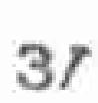31
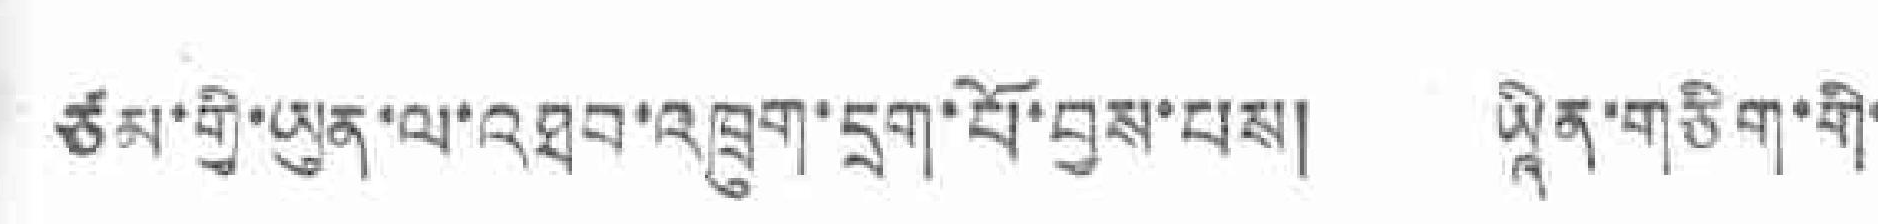ཙམ་གྱི་ཡུན་ལ་འཐབ་འཁྲུག་དྲག་པོ་བྱས་པས། ཡཱིན་གཅིག་གི་
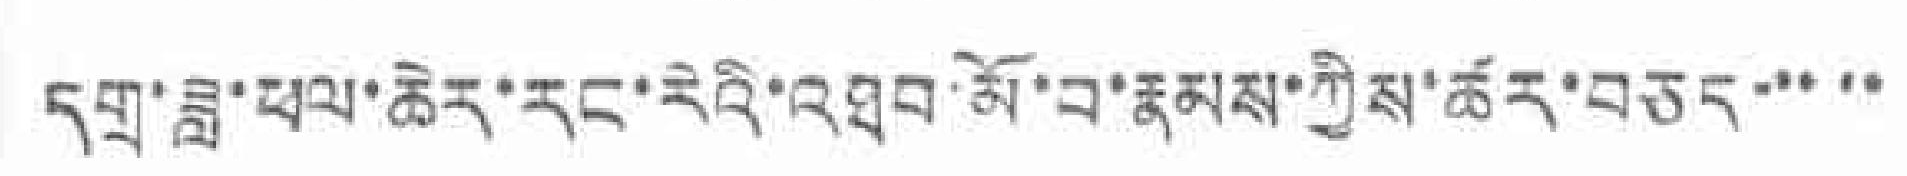དགྲ་ཟླ་ཕལ་ཆེར་རང་རེའི་འཐབ་མོ་བ་རྣམས་ཀྱིས་ཚར་བཅད་་་་་
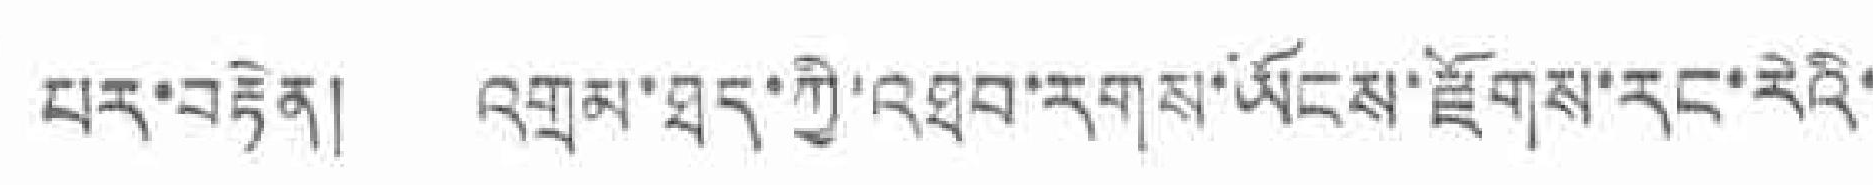པར་བརྟེན། འགྲམ་ཐད་ཀྱི་འཐབ་རགས་ཡོངས་རྫོགས་རང་རེའི་
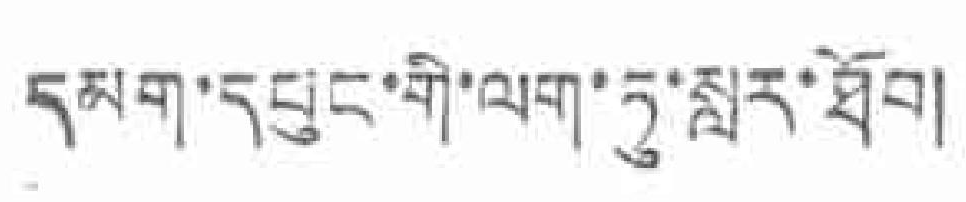དམག་དཔུང་གི་ལག་ཏུ་སླར་ཐོབ།
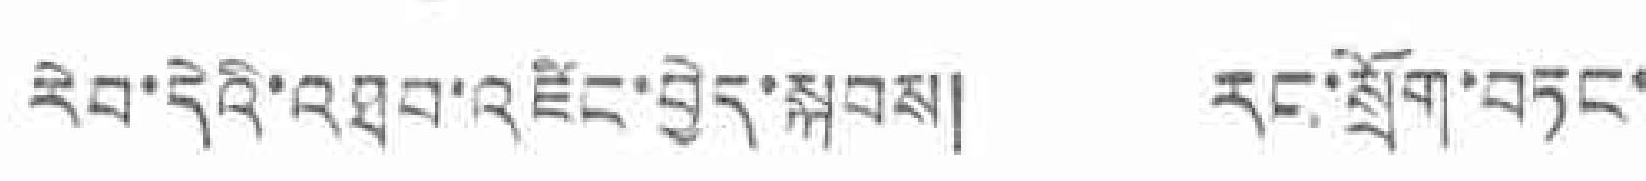རེབ་དེའི་འཐབ་འཛིང་བྱེད་སྐབས། རང་སྲོག་བཏང་
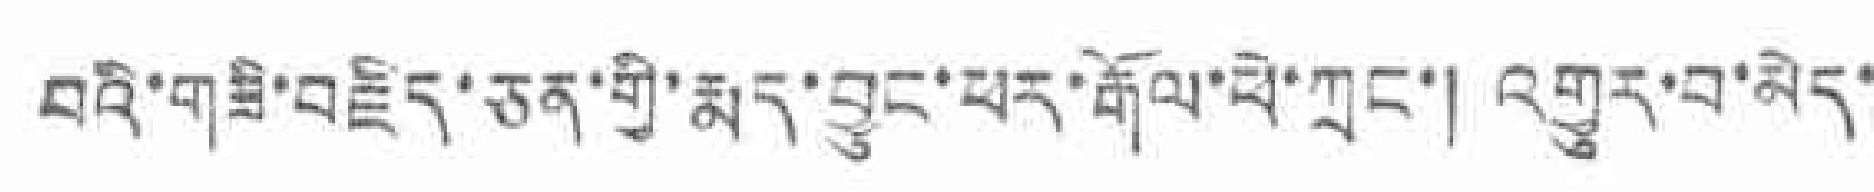བའི་གཟི་བརྗིད་ཅན་གྱི་རྨད་བྱུང་ཕར་རྒོལ་ཕེ་ཀྲང་། འགྱུར་བ་མེད་
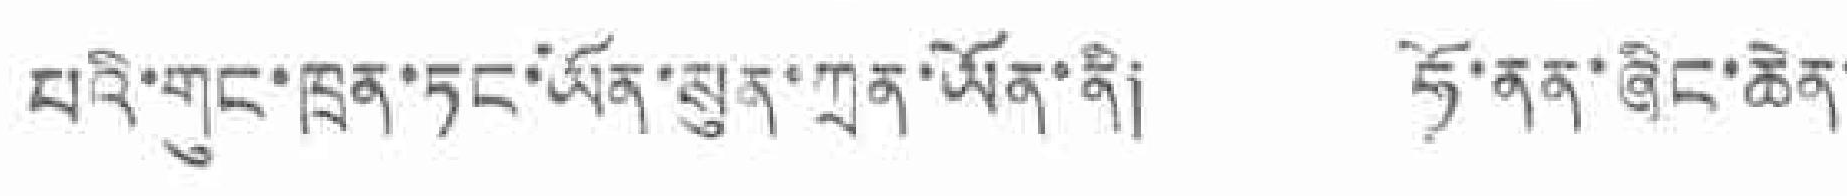པའི་གུང་ཁྲན་ཏང་ཡོན་སུན་ཀྲན་ཡོན་ནི། ཧོ་ནན་ཞིང་ཆེན་
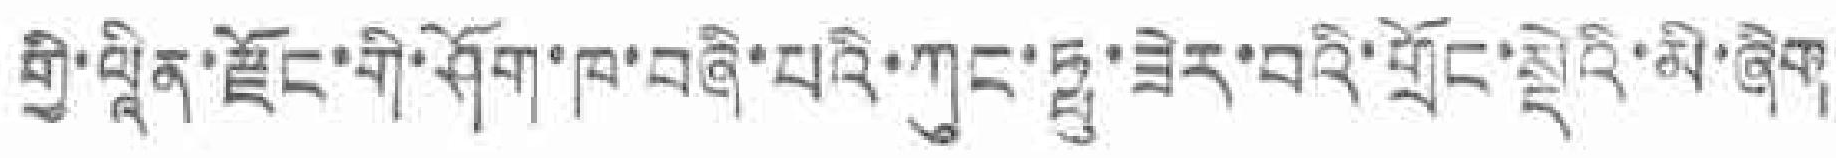གྱི་ལཱིན་རྫོང་གི་ཤོག་ཁ་བཞི་བའི་ཀུང་ཧྥུ་ཟེར་བའི་གྲོང་སྡེའི་མི་ཞིག་
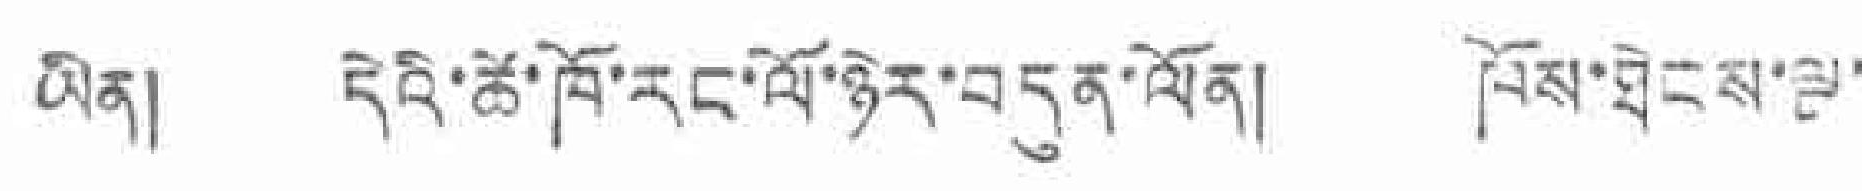ཡིན། དེའི་ཚེ་ཁོ་རང་ལོ་ཉེར་བདུན་ལོན། ཁོས་ཐེངས་ལྔ་
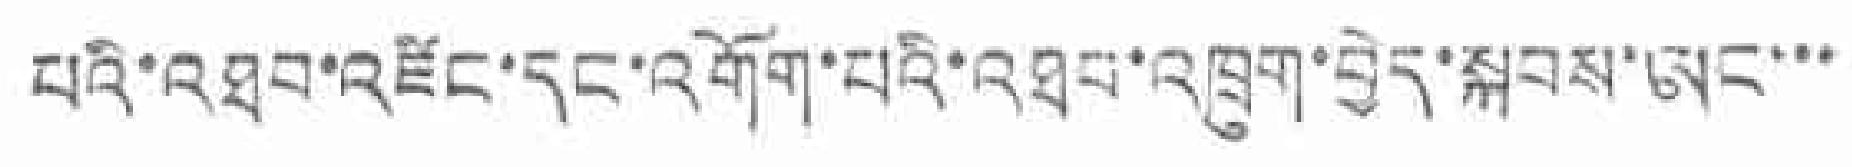པའི་འཐབ་འཛིང་དང་འགོག་པའི་འཐབ་འཁྲུག་བྱེད་སྐབས་ཨང་་་
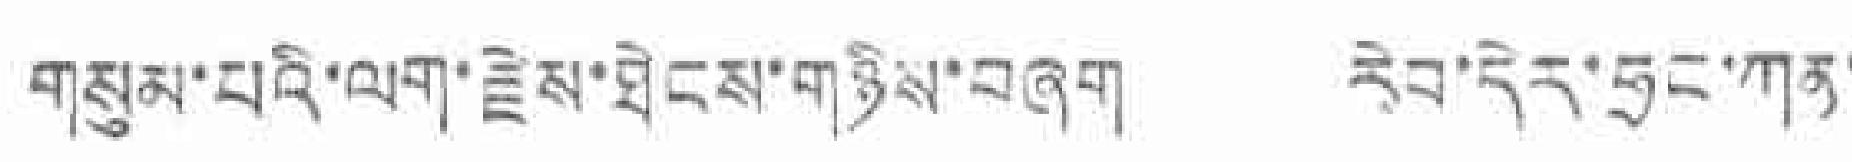གསུམ་པའི་ལག་རྗེས་ཐེངས་གཉིས་བཞག རེབ་དེར་ཧྲང་ཀན་
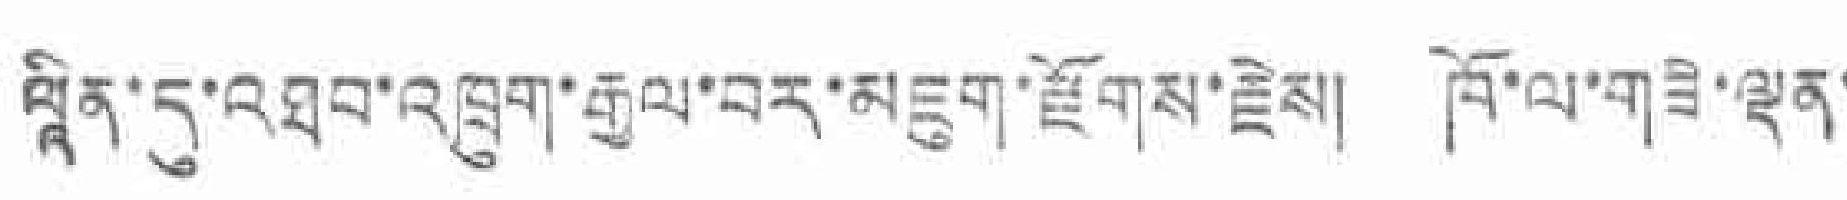ལཱིན་དུ་འཐབ་འཁྲུག་རྒྱལ་བར་མཇུག་རྫོགས་རྗེས། ཁོ་ལ་གཟེ་ལྡན་
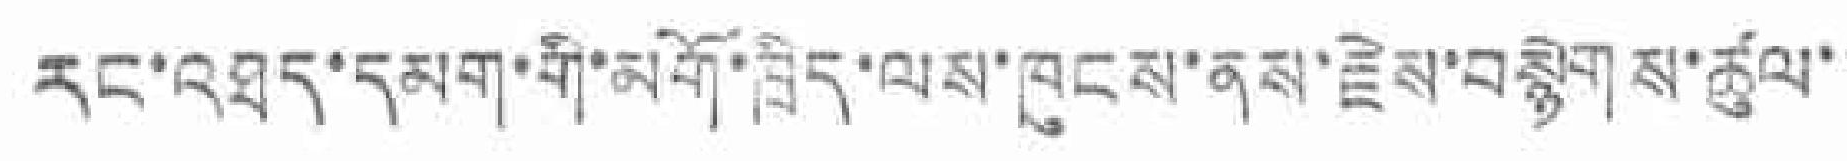རང་འཐད་དམག་གི་མགོ་ཁྲིད་ལས་ཁུངས་ནས་རྗེས་བསྙེགས་ཚུལ་་
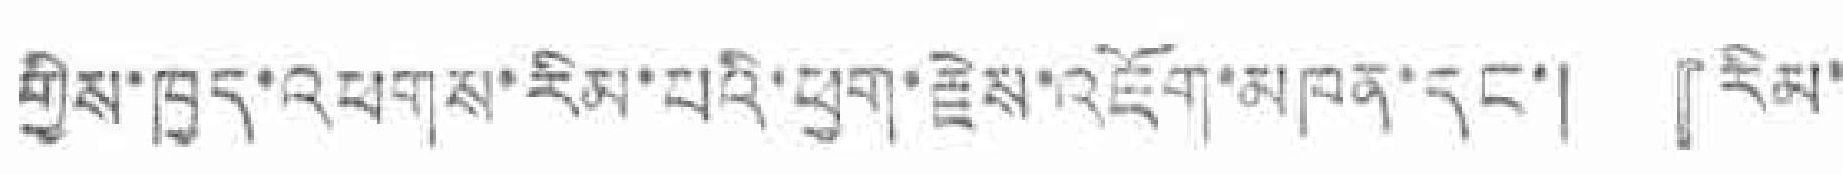གྱིས་ཁྱད་འཕགས་རིམ་པའི་ཕྱག་རྗེས་འཇོག་མཁན་དང་། 『རིམ་
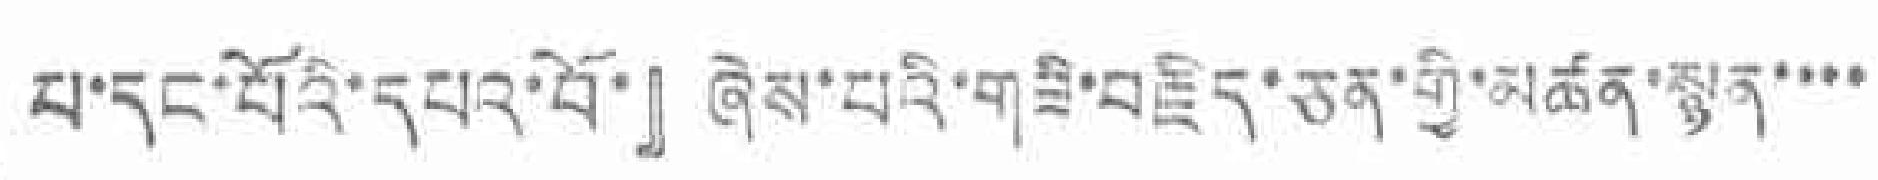པ་དང་པོརི་དཔའ་པོ་』ཞེས་པའི་གཟི་བརྗོད་ཅན་གྱི་མཚན་སྙན་་་་་
